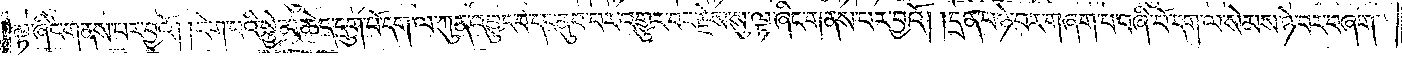ལྟ་ཞིང་གནས་པར་བྱའོ། །རེག་པའི་སྐྱེ་མཆེད་དྲུག་པོ་དག་ལ་ཀུན་འབྱུང་བ་དང་ནུབ་པར་འགྱུར་བར་རྗེས་སུ་ལྟ་ཞིང་གནས་པར་བྱའོ། །དྲན་པ་ཉེ་བར་གཞག་པ་བཞི་པོ་དག་ལ་སེམས་ཉེ་བར་བཞག་
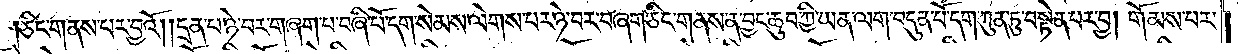ཅིང་གནས་པར་བྱའོ། །དྲན་པ་ཉེ་བར་གཞག་པ་བཞི་པོ་དག་སེམས་ལེགས་པར་ཉེ་བར་བཞག་ཅིང་གནས་ན་བྱང་ཆུབ་ཀྱི་ཡན་ལག་བདུན་པོ་དག་ཀུན་ཏུ་བསྟེན་པར་བྱ། གོམས་པར་
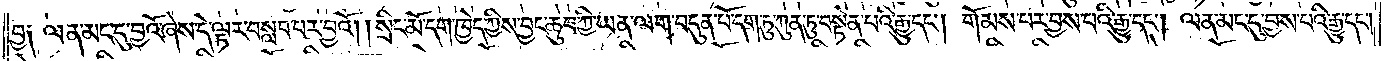བྱ༑ ལན་མང་དུ་བྱའོ་ཞེས་དེ་ལྟར་བསླབ་པར་བྱའོ། །སྲིང་མོ་དག་ཁྱེད་ཀྱིས་བྱང་ཆུབ་ཀྱི་ཡན་ལག་བདུན་པོ་དག་ཏུ་ཀུན་ཏུ་བསྟེན་པའི་རྒྱུ་དང༌། གོམས་པར་བྱས་པའི་རྒྱུ་དང༌། ལན་མང་དུ་བྱས་པའི་རྒྱུ་དང༌།
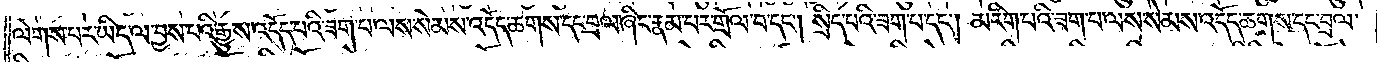ལེགས་པར་ཡིད་ལ་བྱས་པའི་རྒྱུས་འདོད་པའི་ཟག་པ་ལས་སེམས་འདོད་ཆགས་དང་བྲལ་ཞིང་རྣམ་པར་གྲོལ་བ་དང༌། སྲིད་པའི་ཟག་པ་དང༌། མ་རིག་པའི་ཟག་པ་ལས་སེམས་འདོད་ཆགས་དང་བྲལ་
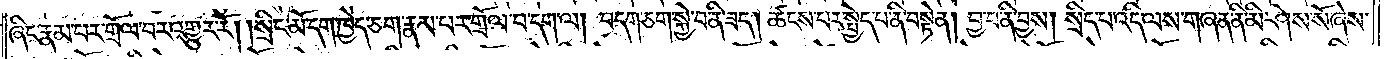ཞིང་རྣམ་པར་གྲོལ་བར་འགྱུར་རོ། །སྲིང་མོ་དག་ཁྱེད་ཅག་རྣམ་པར་གྲོལ་བ་དག་ལ། བདག་ཅག་སྐྱེ་བ་ནི་ཟད། ཚངས་པར་སྤྱོད་པ་ནི་བསྟེན། བྱ་བ་ནི་བྱས། སྲིད་པ་འདི་ལས་གཞན་ནི་མི་ཤེས་སོ་ཞེས་
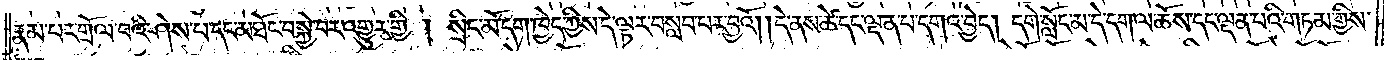རྣམ་པར་གྲོལ་བའི་ཤེས་པ་དང་མཐོང་བ་སྐྱེ་བར་འགྱུར་གྱི ། སྲིང་མོ་དག་ཁྱེད་ཀྱིས་དེ་ལྟར་བསླབ་པར་བྱའོ། །དེ་ནས་ཚེ་དང་ལྡན་པ་དགའ་བྱེད། དགེ་སློང་མ་དེ་དག་ལ་ཆོས་དང་ལྡན་པའི་གཏམ་གྱིས་
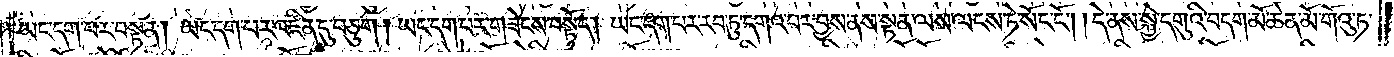ཡང་དག་པར་བསྟན། ཡང་དག་པར་འཛིན་དུ་བཅུག། ཡང་དག་པར་གཟེངས་བསྟོད། ཡང་དག་པར་རབ་ཏུ་དགའ་བར་བྱས་ནས་སྟན་ལས་ལངས་ཏེ་སོང་ངོ༌། །དེ་ནས་སྐྱེ་དགུའི་བདག་མོ་ཆེན་མོ་གོའུ་ཏ་
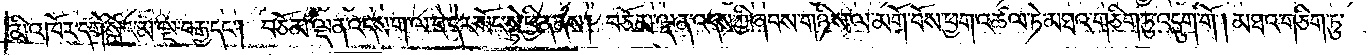མི་འཁོར་དགེ་སློང་མ་ལྔ་བརྒྱ་དང༌། བཅོམ་ལྡན་འདས་ག་ལ་བ་དེར་སོང་སྟེ་ཕྱིན་ནས། བཅོམ་ལྡན་འདས་ཀྱི་ཞབས་གཉིས་ལ་མགོ་བོས་ཕྱག་འཚལ་ཏེ་མཐའ་གཅིག་ཏུ་འདུག་གོ། མཐའ་གཅིག་ཏུ་
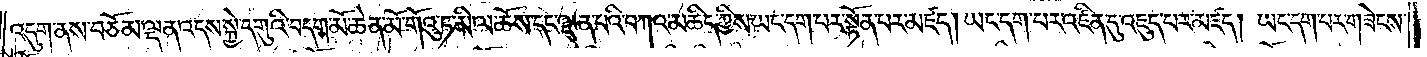འདུག་ནས་བཅོམ་ལྡན་འདས་སྐྱེ་དགུའི་བདག་མོ་ཆེན་མོ་གོའུ་ཏ་མི་ལ་ཆོས་དང་ལྡན་པའི་བཀའ་མཆིད་ཀྱིས་ཡང་དག་པར་སྟོན་པར་མཛད། ཡང་དག་པར་འཛིན་དུ་འཇུད་པར་མཛད། ཡང་དག་པར་གཟེངས་
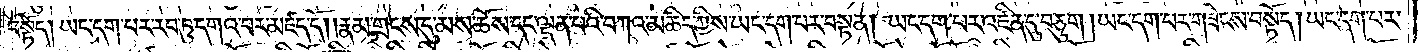བསྟོད། ཡང་དག་པར་རབ་ཏུ་དགའ་བར་མཛད་དོ། །རྣམ་གྲངས་དུ་མས་ཆོས་དང་ལྡན་པའི་བཀའ་མཆིད་ཀྱིས་ཡང་དག་པར་བསྟན། ཡང་དག་པར་འཛིན་དུ་བཅུག། ཡང་དག་པར་གཟེངས་བསྟོད། ཡང་དག་པར་
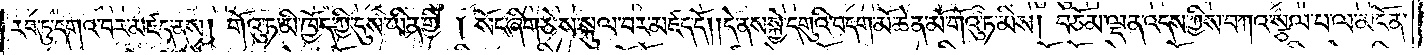རབ་ཏུ་དགའ་བར་མཛད་ནས། གོའུ་ཏ་མི་ཁྱོད་ཀྱི་དུས་ཡིན་གྱི། སོང་ཞིག་ཅེས་སྐུལ་བར་མཛད་དོ། །དེ་ནས་སྐྱེ་དགུའི་བདག་མོ་ཆེན་མོ་གོའུ་ཏ་མིས། བཅོམ་ལྡན་འདས་ཀྱིས་བཀའ་སྩལ་པ་ལ་མངོན་
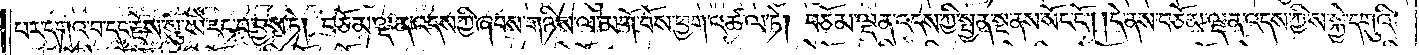པར་དགའ་བ་དང་རྗེས་སུ་ཡི་རང་བ་བྱས་ཏེ། བཅོམ་ལྡན་འདས་ཀྱི་ཞབས་གཉིས་ལ་མགོ་བོས་ཕྱག་འཚལ་ཏེ། བཅོམ་ལྡན་འདས་ཀྱི་སྤྱན་སྔ་ནས་སོང་ངོ༌། །དེ་ནས་བཅོམ་ལྡན་འདས་ཀྱིས་སྐྱེ་དགུའི་
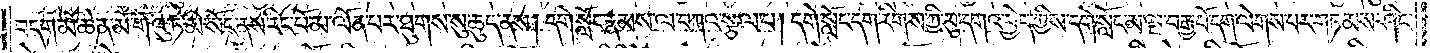བདག་མོ་ཆེན་མོ་གོའུ་ཏ་མི་སོང་ནས་རིང་པོ་མ་ལོན་པར་ཐུགས་སུ་ཆུད་ནས། དགེ་སློང་རྣམས་ལ་བཀའ་སྩལ་པ། དགེ་སློང་དག་རིགས་ཀྱི་བུ་དགའ་བྱེད་ཀྱིས་དགེ་སློང་མ་ལྔ་བརྒྱ་པོ་དག་ལེགས་པར་གཏམས་ཤིང་
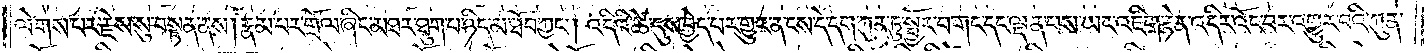ལེགས་པར་རྗེས་སུ་བསྟན་ནས། རྣམ་པར་གྲོལ་ཞིང་མཐར་ཐུག་པ་ཉིད་མ་ཐོབ་ཀྱང༌། འདིའི་ཚེ་དུས་བྱེད་པར་གྱུར་ན་ངས་དེ་དག་ཀུན་ཏུ་སྦྱོར་བ་གང་དང་ལྡན་པས་ཡང་འཇིག་རྟེན་འདིར་འོང་བར་འགྱུར་བའི་ཀུན་
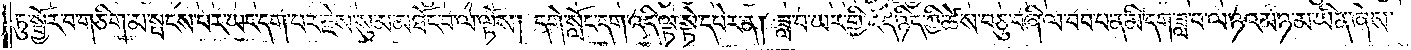ཏུ་སྦྱོར་བ་གཅིག་མ་སྤངས་པར་ཡང་དག་པར་རྗེས་སུ་མ་མཐོང་བ་ལ་ལྟོས། དགེ་སློང་དག་འདི་ལྟ་སྟེ་དཔེར་ན། ཟླ་བ་ཡར་གྱི་ངོ་དེ་ཉིད་ཀྱི་ཚེས་བཅུ་བཞི་ལ་བབ་པ་ན་མི་དག་ཟླ་བ་ལ་ཉའམ་ཉ་མ་ཡིན་ཞེས་
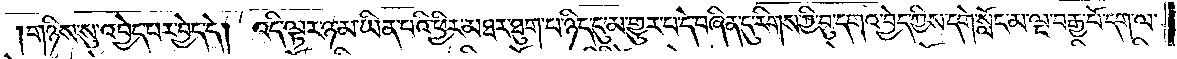གཉིས་སུ་འབྱེད་པར་བྱེད་དེ། འདི་ལྟར་ཉ་མ་ཡིན་པའི་ཕྱིར་མཐར་ཐུག་པ་ཉིད་དུ་མ་གྱུར་པ་དེ་བཞིན་དུ་རིགས་ཀྱི་བུ་དགའ་བྱེད་ཀྱིས་དགེ་སློང་མ་ལྔ་བརྒྱ་པོ་དག་ལ་
